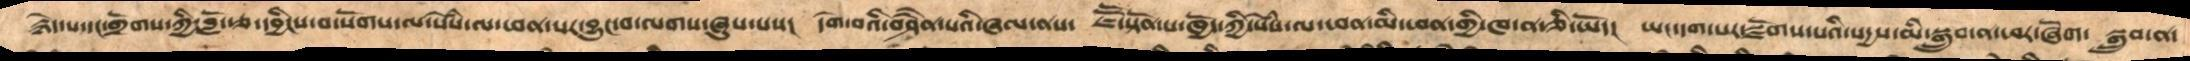རྙེད་པ་དང་གྲོགས་ཀྱི་བློ་རྩ་དབྱིངས་བ་སོགས་ལ་སེཾས་ལ་ཕན་པར་བྱུང་བ་ལགས་ཞུས་པས།  དགེ་བའི་བཤཻན་པའི་ཞལ་ནས་  ཇཽ་སྟོན་པ་ཁྱོད་ཀྱི་སེཾས་ལ་ཕན་མི་ཕན་གྱི་ཁ་ན་ཅི་ཡོད།  ཡང་དག་པར་སྫོགས་པའི་སདྱས་མི་སྒྲུབ་ན་ཕར་ཞོག་  སྒྲུབ་ན་
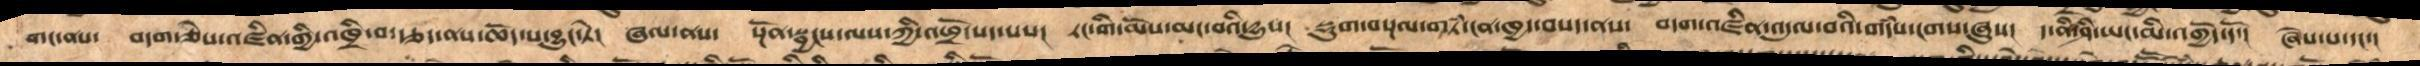གང་ནས། བདག་གཅེས་འཛིན་གྱི་འཁྲི་བ་རྩད་ནས་ཆོད་པ་བྱུང་སྟེ།  ཞལ་ནས། སྔོན་སྦྱངས་ལས་ཀྱི་འཕྲོ་སད་པས། རང་གི་མོས་མང་བའི་དྱུས། སྡུག་བསྔལ་གཏཾ་ངན་ཁྱད་བསད་ནས།  བདག་འཛིན་འདུལ་བའི་གདཾས་ངག་ཞུས།  ད་ནི་ཤི་ཡང་མི་འགྱོད་དོ། ཞེས་པ་དང་།
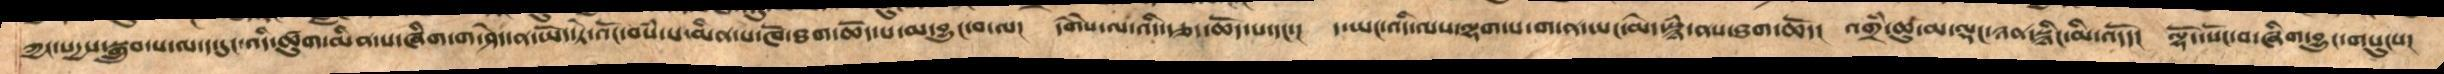ཀྱང་སདྱས་སྒྲུབ་པ་ལ་ད་དུང་འདི་ཚུག་མིན་པ་ཞིག་ག་ཤེད་ན་ཡོད་ཏེ་འོང་བསཾ་པ་མིན་པ་ཁོ་ཐག་ཆོད་པ་མ་བྱུང་བ་ལ། དགཻས་ལ་འདི་རྩད་ཆོད་པ་དང་། ད་ཡང་འདི་ལས་ལྷག་པ་གང་ན་ཡང་མེད་སྙཾ་ནས་ཐག་ཆོད། འགྲཾ་ཆུ་མ་ལྡང་ཉན་སྙིང་མི་འདོད། ལྷོད་སོང་བ་ཞིག་བྱུང་གསུངས།
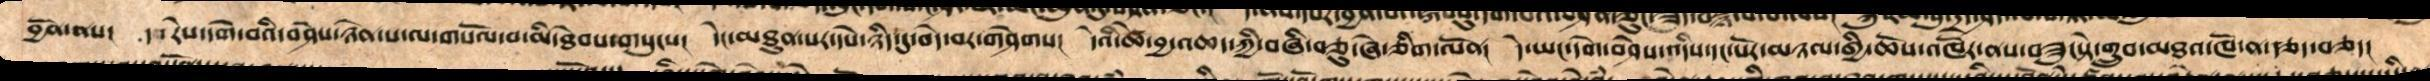བྱོན་ནས། ད་རེས་དགེ་བའི་བཤེས་གཉེན་པ་ལ་གསོལ་བ་མི་ཐེབས་གསུངས།  དེང་མཐུན་པར་དཔེ་ཉིད་དུ་བདེ་བར་གཤེགས།  དེའི་ཚེ་བྱ་འཆད་ཀྱི་བཞི་བཅུ་ཞེ་ཅིག་ལོན།  དེ་ཡང་དགེ་བཤེས་འདིས་དང་པོར་མཉལ་གྱི་ཆོས་འཁོར་ནས་བཟུངསྟེ་གྲུབ་མཐའ་ཁོ་ན་རྩད་བཅད་
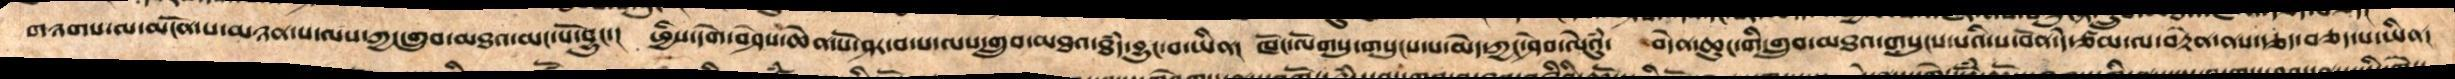གཉགས་ལ་མངོན་པ་མཉན་པ་ལས་ཀྱང་གྲུབ་མཐའ་མང་པོ་བྱུང་།  ཕྱིས་དགེ་བཤེས་ཆེན་པོ་ཤར་བ་པ་ལས་གྲུབ་མཐའ་ཐཾད་བྱུང་བ་ཡིན།  ཁོང་ལོགསུ་གསུངས་བ་མེད་ཀྱང་ཤེབ་ལེའུཾ། བདེན་ཆུང་གི་གྲུབ་མཐའ་གསུངས་བའི་ས་བོན་དེ་ཙམ་ལ་བརྟེན་ནས་རྩད་བཅད་པ་ཡིན།
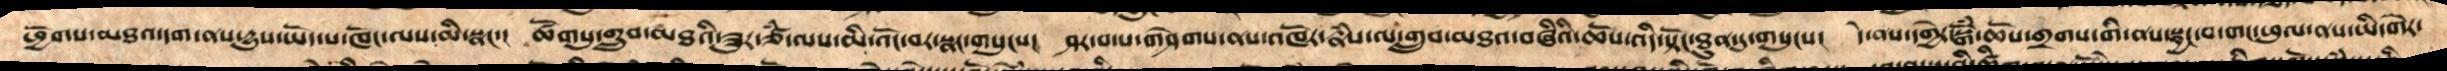ཕྱོགས་མཐའ་དག་ནས་དྱུས་ཡོད་པ་ཁོང་ལས་མི་སྣང་། ཚོགསུ་གྲུབ་མཐའི་ཟུར་ཙཾ་ལས་མི་འོང་བར་སྣང་གསུངས།  ཤར་བ་པ་གཤེགས་ནས་འཁོར་རྣཾས་ལ་གྲུབ་མཐའ་བཞིའི་ཆོས་འདི་སྟོང་ཐུན་དུ་གསུངས།  དེ་ནས་དགྱེར་སྒོཾ་ཆོས་གྲགས་གི་ནས་སྦྱང་བ་གང་ཕུལ་ནས་ཡི་གེར་
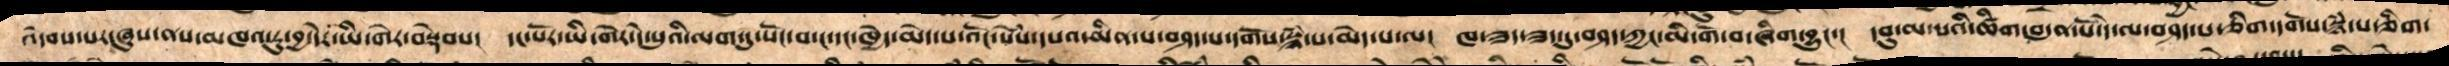འདེབས་པར་ཞུས་ནས་མཁའ་རུ་བྱ་དེར་ཡི་གེར་བསྡེབས།  དང་པོ་ཡི་གེར་དེ་སུའི་ལག་ཏུ་སོང་བ་ང་དང་ཁྱེད་མེད་པ་འོང་སེཾས་དཔའ་མིན་པ་བཤད་པ་དགོས་སྙཾ་པ་མེད་པ་ལ། ཁ་ཟད་ཟད་དུ་བཤད་ཀྱང་མི་གོ་བ་ཞིག་བྱུང་། དབུ་མ་པའི་ཚིག་བདུན་པོ་དེ་ལ་བཤད་པ་ཅིག་དགོས་སྙཾ་པ་ཅིག་
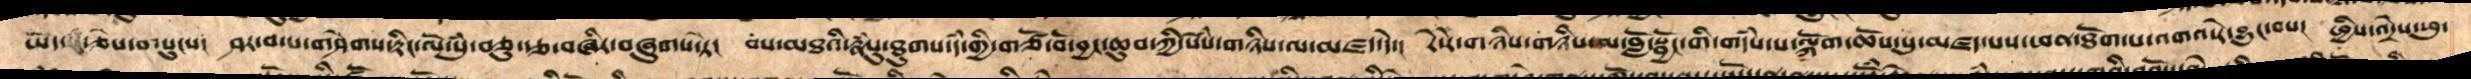ཡོད་ཅེས་གསུངས། ཤར་བ་པ་གཤེགས་རྟིང་ལོ་སུཾ་ཅུ་རྩ་བཞིར་བཞུགས་ཏེ།  བས་མཐའི་རྣཾསུ་ཐུགས་དཾ་གྱི་གཙོ་བོ་བྱང་ཆུབ་ཀྱི་སེཾས་གཉིས་ལ་མཛད་དེ།  རེ་རེ་གཉིས་གཉིས་ལ་བློ་སྦྱོང་གི་གདཾས་པ་ལྐོག་ཆོས་སུ་མཛད་པས་ཕན་ཐོགས་པ་འགའ་རེ་བྱུང་བས། ཕྱིས་འདྲེས་ཕུ་
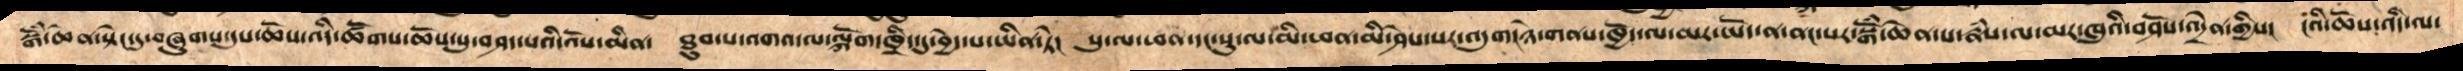སྒོཾ་ཆེན་སྡེང་དུ་བཞུགས་དུས་ཆོས་འདི་ཚོགས་ཆོས་སུ་བཤད་པའི་འོས་མིན།  ཐུབ་པ་འགའ་ལ་ལྐོག་ཁྲིད་དུ་བྱེད་པ་ཡིན་ཏེ།  སུ་ལ་ཕན་དང་སུ་ལ་མི་ཕན་མི་ཤེས་པར་འདུག་ཉེ་གནས་ཁྱོད་ལ་མར་ཡོད་ན་ནང་པར་སྒོཾ་ཆེན་པ་རྣཾས་ལ་མར་ཁུའི་བཤོས་འདྲེན་གྱིས། ངའི་ཆོས་འདི་ལ་
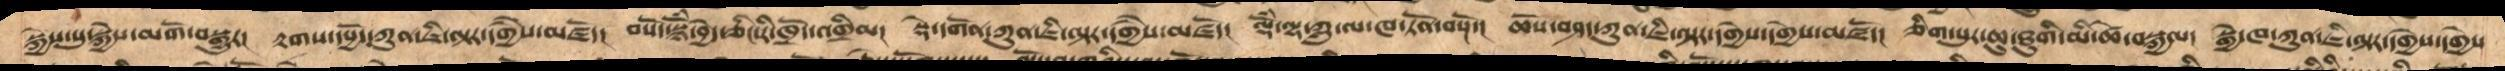སྐྱེས་སུ་སྐྱེས་མགོ་བསྒྱུར།   རྟགས་དཔྱོད་ཀུན་ཇི་ལྟར་དགྱཻས་མཛོད།    བསོད་སྙོཾ་བྱེད་ཅིང་རི་ཁྲོད་འགྲིམ།   སྡེ་དགོན་ཀུན་ཇི་ལྟར་དགྱཻས་མཛོད།   ལྷོཾ་ལྷ་ཀླུ་ལ་ཁ་ཏོན་བསྔོ་།   ཆོས་བཤད་ཀུན་ཇི་ལྟར་དགྱེས་དགྱེས་མཛོད།  ཅིག་པུར་ཆུ་ཐུགི་མི་ཚེ་བསྐྱལ།   སྒྱེ་ཁ་ཀུན་ཇི་ལྟར་དགྱེས་དགྱེས
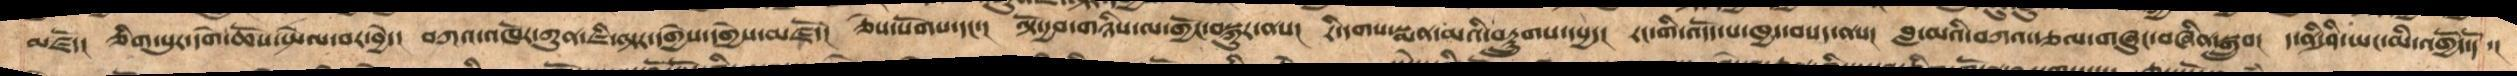མཛོད།  ཅིག་པུར་དགེ་ཆོས་སྤེལ་བར་བྱེད།  བཀའ་འཁོར་ཀུན་ཇི་ལྟར་དགྱེས་དགྱེས་མཛོད།  ཅེས་སོགས་དང་།  ལྟོ་དྱབ་གཉིས་ལ་གྱོང་བསྐུར་ནས། རི་དགས་སྨན་མའི་བརྟྲུགས་དཔྱད།  རང་གི་འདོད་པ་ཁྱད་བསད་ནས།  བླ་མའི་བཀའ་རྩལ་གཞུང་བཞིན་སྒྲུབ།  ད་ནི་ཤི་ཡང་མི་འགྱོད་དོ་།
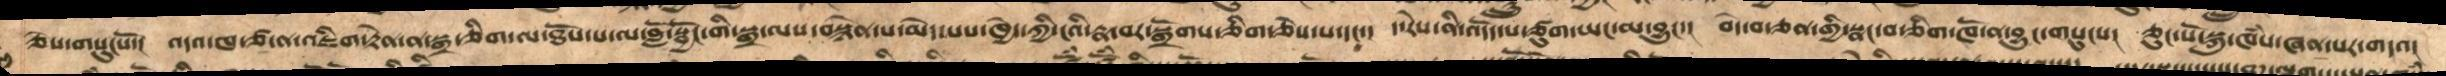ཅེས་གསུངསོ་།  འདའ་ཁ་ཙ་ན་འཇིག་རྟེན་ན་སྒྲ་ཅིག་ལ་ཐོས་པ་ལ་བློ་སྦྱོང་གི་སྒྲ་ལས་བསྙེན་པ་མེད་པས་ཁྱེད་ཀྱི་ངའི་རྣ་བར་སྒྲོགས་ཅིག་ཅེས་པ་དང་།  ད་རེས་ནི་འདོད་པ་ཙུག་ཡང་མ་བྱུང་།  བདེ་བ་ཅན་གྱི་སྣང་བ་ཅིག་ཁོ་ན་བྱུང་གསུངས།  ཅུང་པོ་སྐུ་ཁཾས་ཞན་པར་གདའ།
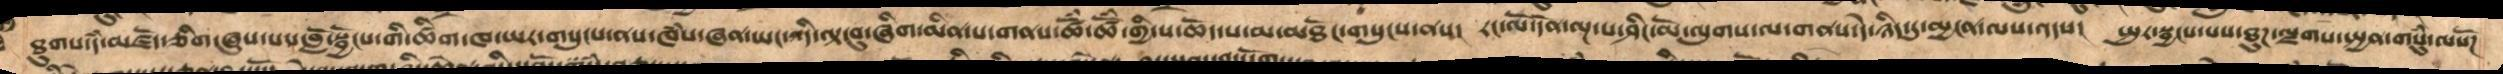ཐུགས་དཾ་མཛོད་ཅིག་ཞུས་པས་བློ་སྦྱོངས་གི་ཚིག་ཁ་ཡར་གསུངས་ནས་ཁཾས་ཞན་ཡང་འདི་ལྟ་བུ་ཞིག་མིན་པ་གནས་ཚོཾ་ཚོཾ་གྱི་ས་ཆོད་པ་མ་མཐོང་གསུངས་ནས། རང་ལོ་དོན་ལྔ་པ་ཤིང་མོ་ལུགས་ལ་གནས་དེ་ཉིད་དུ་མྱངན་ལས་འདས།  སྤུར་སྦྱངས་པས་ཐུཌ་ལྗགས་སྤྱན་གསུཾ་ལསོཌ
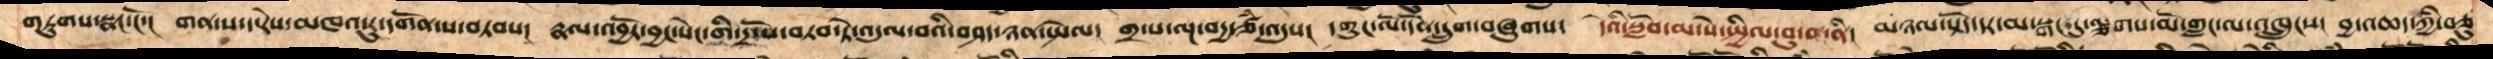གཏུགས་སྣང་ངོ་།  གན་ས་ད་རེས་མཁའ་རུ་དགོན་པ་བཏབ།  རྣལ་འབྱོར་བྱང་སེང་གི་དྲོ་པ་བཏབ་ཏེ་འདུལ་བའི་བཤད་ཉན་སྤེལ།  གྲ་པ་ལྔ་བདྱ་ཙཾ་འདུས།  དགུང་ལོ་དོན་དྲུག་བཞུགས།  དེའི་སློབ་མ་སེ་སྤྱིལ་བུ་བ་ནི། མཉལ་སྟོད་དར་མ་སྒང་དུ་ལྕགས་མོ་གླང་ལ་འཁྲུངས། བྱ་འཆད་ཀྱི་བཅུ་
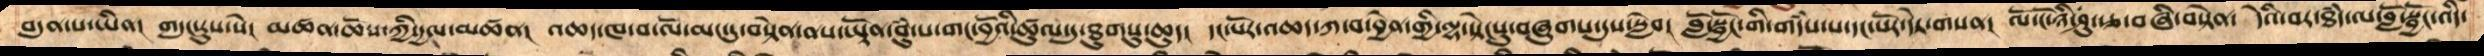བདུན་པ་ཡིན། གདུང་རུས་སེ། མཚན་ཆོས་ཀྱི་དྱལ་མཚན། འཆད་ཁ་བ་ལོ་མང་དུ་བསྟེན་ནས་ཡྟོན་བུཾ་པ་གང་བྱོའི་ཚུལ་དུ་ཐུགསུ་ཆུད།  དང་པོར་འཆད་ཀ་བ་བྱེན་གྱི་ལྷ་སྡེང་དུ་བཞུགས་དུས་སླེབ།  བློ་སྦྱོང་གི་གདཾས་པ་དང་པོར་དེར་གསན།  ལོ་ཉི་ཤུ་རྩ་བཞི་བསྟེན་ དེའི་བར་ཐདཾ་ལ་་བློ་སྦྱོང་འདི་
